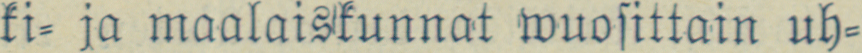ki- ja maalaiskunnat wuosittain uh-
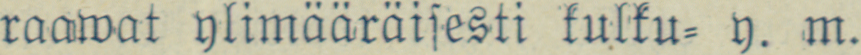raawat ylimääräisesti kulku- y. m.
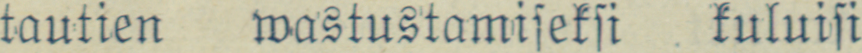tautien wastustamiseksi kuluisi
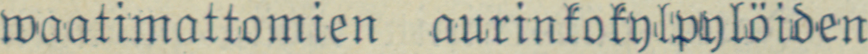waatimattomien aurinkokylpylöiden
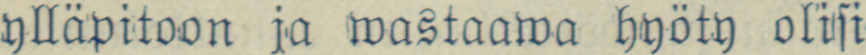ylläpitoon ja wastaawa hyöty olisi
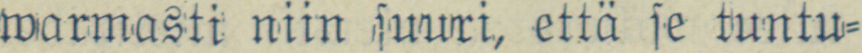warmasti niin suuri, että se tuntu-
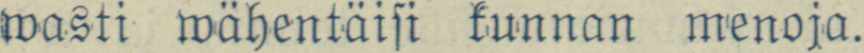wasti wähentäisi kunnan menoja.
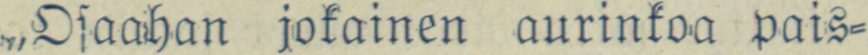„Osaahan jokainen aurinkoa pais-
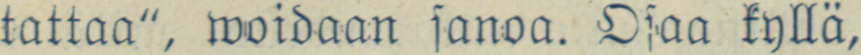tattaa", woidaan sanoa. Osaa kyllä,
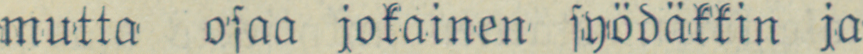mutta osaa jokainen syödäkkin ja
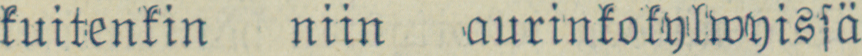kuitenkin niin aurinkokylwyissä
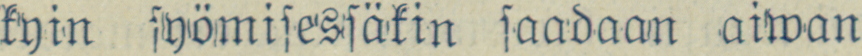kyin syömisessäkin saadaan aiwan
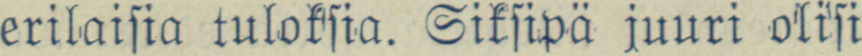erilaisia tuloksia. Siksipä juuri olisi
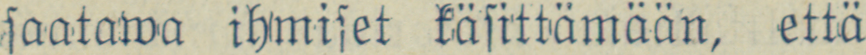saatawa ihmiset käsittämään, että
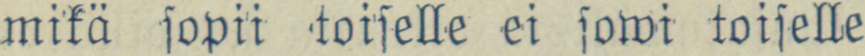mikä sopii loiselle ei sowi toiselle
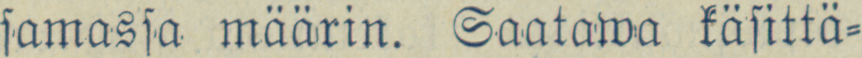samassa määrin. Saatawa käsittä-
